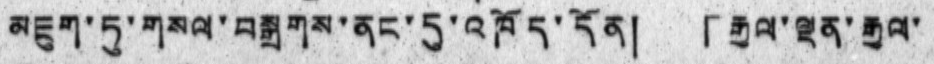མཇུག་ཏུ་གསལ་བསྒྲགས་ནང་དུ་འཁོད་དོན། 「རྒྱལ་ལྡན་རྒྱལ་
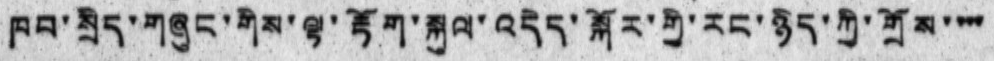ཁབ་སྲིད་གཞུང་གིས་ལྟ་རྟོག་སྐུལ་འདེད་སྐོར་གྱི་རང་ཉིད་ཀྱི་གྲོས་་་་
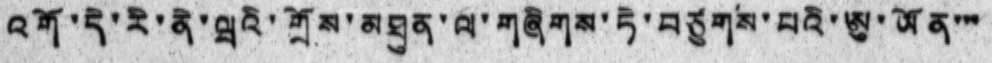འགོ་དེ་རི་ནེ་ཝའི་གྲོས་མཐུན་ལ་གཞིགས་ཏེ་བཙུགས་པའི་ཨུ་ཡོན་་་
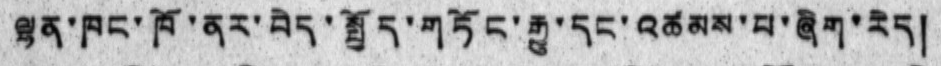ལྷན་ཁང་ཁོ་ནར་བེད་སྤྱོད་གཏོང་རྒྱུ་དང་འཚམས་པ་ཞིག་རེད།
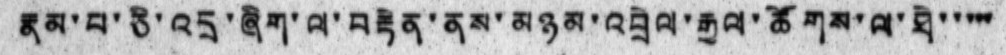རྣམ་པ་ཅི་འདྲ་ཞིག་ལ་བརྟེན་ནས་མཉམ་འབྲེལ་རྒྱལ་ཚོགས་ལ་ཐེ་་་་་
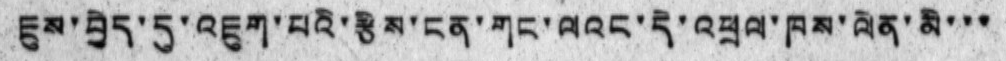ཇུས་བྱེད་དུ་འཇུག་པའི་རྩིས་ངན་གང་ལའང་དེ་འཕྲལ་ཁས་ལེན་མི་་་
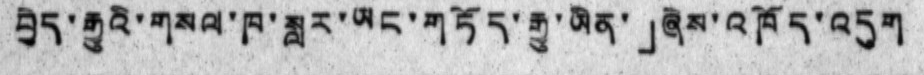བྱེད་རྒྱུའི་གསལ་ཁ་སླར་ཡང་གཏོད་རྒྱུ་ཡིན་」ཞེས་འཁོད་འདུག
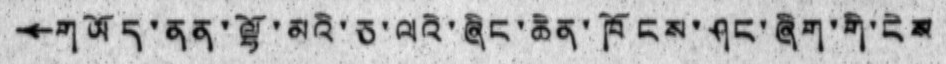←གཡོད་ནན་ལྷོ་མའི་ཅ་ལའི་ཞིང་ཆེན་ཁོངས་ཤང་ཞིག་གི་ངེས
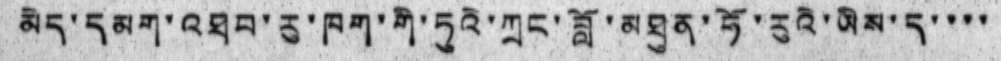མེད་དམག་འཐབ་རུ་ཁག་གི་ཏུའི་ཀྲང་བློ་མཐུན་ཧོ་རུའེ་ཡིས་ད་་་་
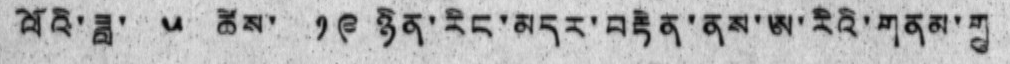ལོའི་ཟླ་ ༥ ཚེས་ ༡༩ ཉིན་རིང་མདར་བརྟེན་ནས་ཨ་རིའི་གནམ་གྲུ
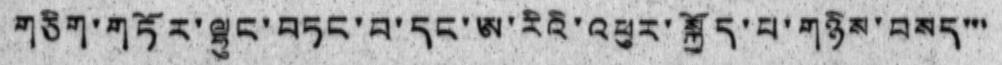གཅིག་གཏོར་ལྷུང་བཏང་བ་དང་ཨ་རིའི་འཕུར་སྐྱོད་པ་གཉིས་བསད་་་
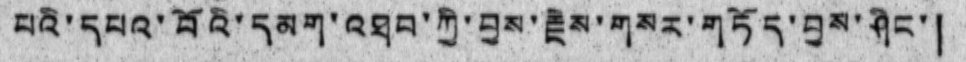པའི་དཔའ་བོའི་དམག་འཐབ་ཀྱི་བྱས་རྗེས་གསར་གཏོད་བྱས་ཤིང་།
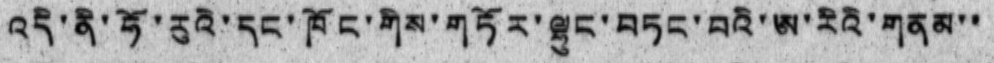འདི་ནི་ཧོ་རུའེ་དང་ཁོང་གིས་གཏོར་ལྷུང་བཏང་བའི་ཨ་རིའི་གནམ་་
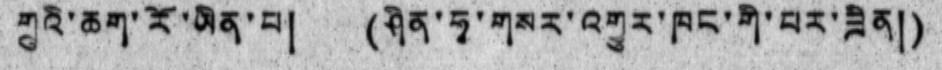གྲུའི་ཆག་རོ་ཡིན་པ། (ཤིན་ཧྭ་གསར་འགྱུར་ཁང་གི་པར་ཟིན།)
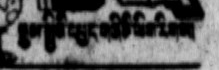རྒྱལ་སྤྱིའི་དཔྱད་གཞིའི་ཡིག་རིགས།
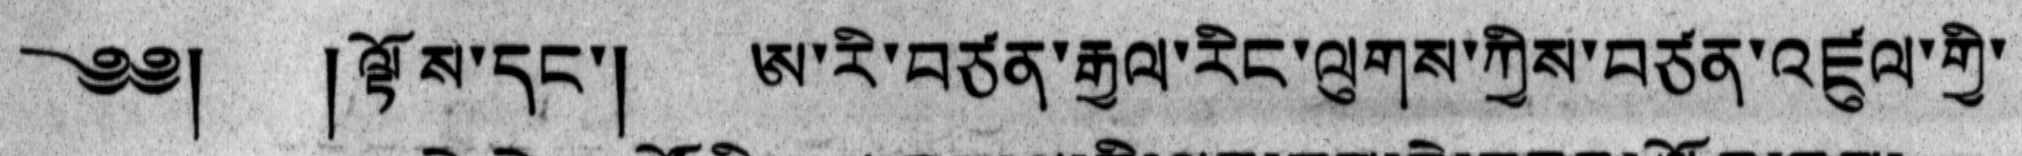༄༅། །ལྟོས་དང་། ཨ་རི་བཙན་རྒྱལ་རིང་ལུགས་ཀྱིས་བཙན་འཛུལ་གྱི་
